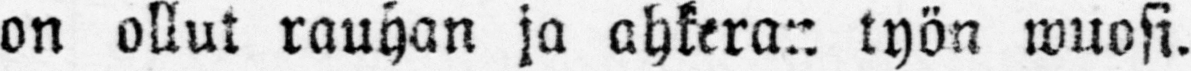on ollut rauhan ja ahkeraa työn wuosi.
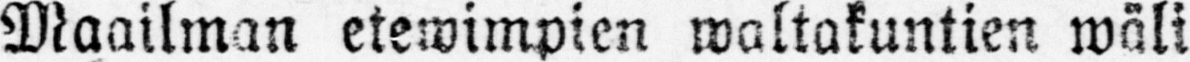Maailman etewimpien waltakuntien wäli
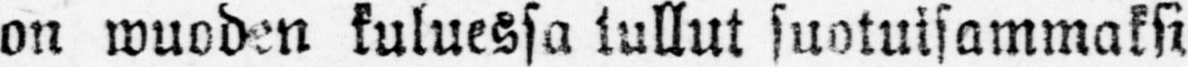on wuoden kuluessa tullut suotuisammaksi
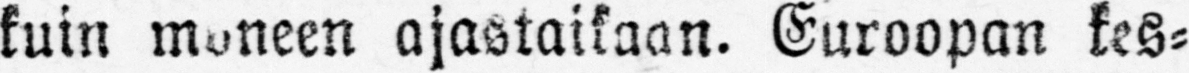kuin moneen ajastaikaan. Euroopan kes-
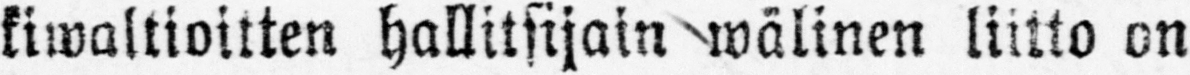kiwaltioitten hallitsijain wälinen liitto on
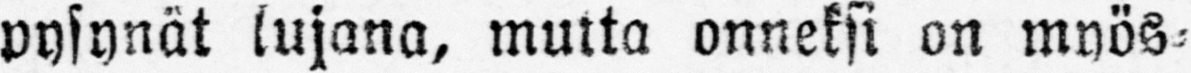pysynät lujana, mutta onneksi on myös-
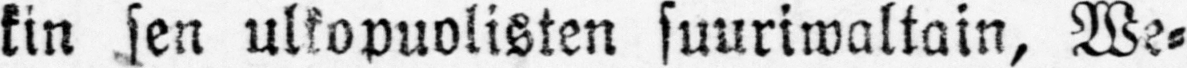kin sen ulkopuolisten suuriwaltain, We-
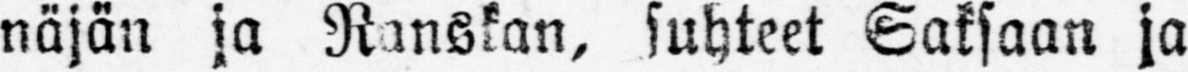näjän ja Ranskan, suhteet Saksaan ja
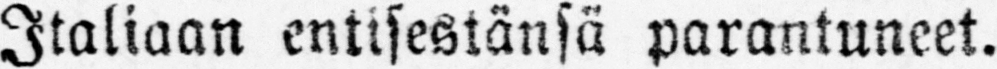Italiaan entisestänsä parantuneet.
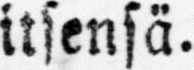itsensä.
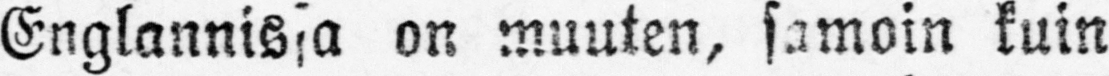Englannissa on muuten, samoin kuin
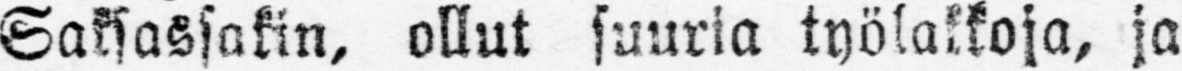Saksassakin, ollut suuria työlakkoja, ja
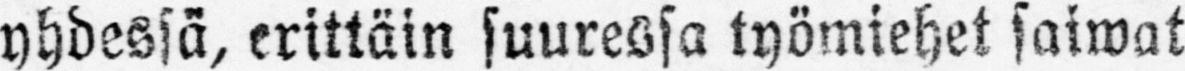yhdessä, erittäin suuressa työmiehet saiwat
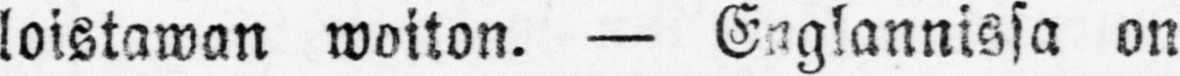loistawan woiton. — Englannissa on
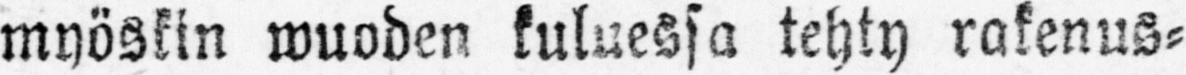myöskin wuoden kuluessa tehty rakenus-
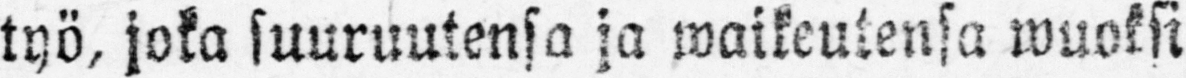työ, joka suuruutensa ja waikeutensa wuoksi
